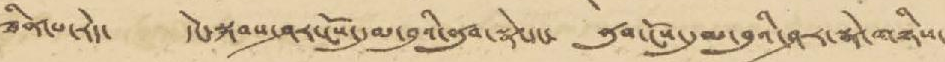ཟིན་པ་རེད་ དེང་སྐབས་ཤར་ངོས་དུམ་བུའི་ནུབ་སྣེ་དང་ ནུབ་ངོས་དུམ་བུའི་ཤར་སྣེ་གཉིས་
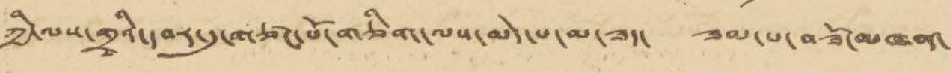ཀྱི་ལས་གྲྭའི་དབར་དུ་གཙང་པོ་གཅིག་ལས་མེད་པ་མ་ཟད་ ཟམ་པ་བཟོ་མཁན་
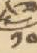༡༠
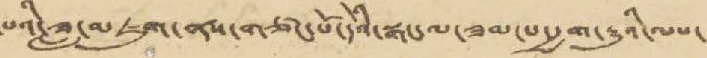པའི་ཟླ་མཇུག་ནས་གཙང་པོ་དེའི་སྒང་ལ་ཟམ་པ་རྒྱག་རྒྱུའི་ལས་
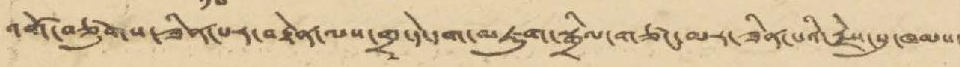འགོ་བཙུགས་ཟིན་པར་བརྟེན་ལས་གྲྭ་དེ་དག་མཇུག་སྒྲིལ་གཙང་མར་ཟིན་པའི་རྗེས་སུ་ཁམས་
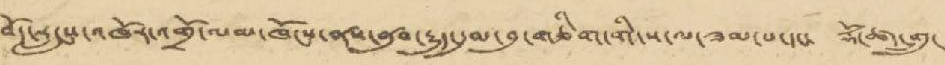བོད་རླངས་འཁོར་འགྲོ་ལམ་ཁོངས་ནས་ནུབ་རྒྱུད་དུམ་བུ་གཅིག་གི་ས་ལ་ཟམ་པ་དང་ རྡོང་ཚད་གྲུ་
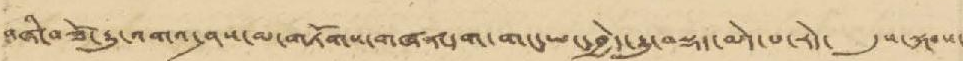བཞི་བཟོ་རྒྱུ་འགའ་ཤས་མ་གཏོགས་གཞན་དག་གང་ཡང་བྱེད་རྒྱུ་བསྡད་མེད་པ་རེད་ དུས་སྐབས་
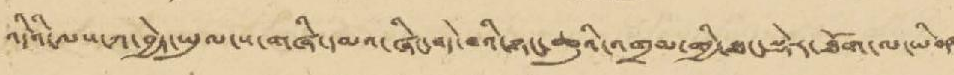འདིའི་ལས་ཀ་བྱེད་ཡུལ་ས་གཞི་དམའ་ཞིང་བདེ་བའི་ཉང་ཆུའི་འགྲམ་གྱི་ཐང་སྡེར་ཐོག་ལ་ཡིབ་
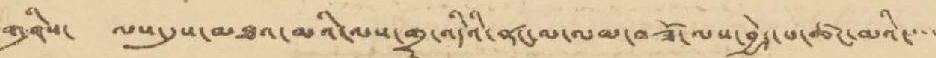གཤིས་ ལས་དུས་མཐའ་མའི་ལས་གྲྭ་འདིའི་ནང་མ་ལམ་བཟོ་ལས་བྱེད་པ་ཚང་མའི་་་་་
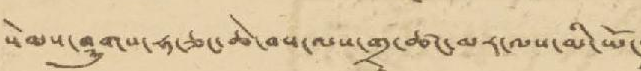སེམས་ཤུགས་ཧ་ཅང་ཆེ་བས་ལས་གྲྭ་ཚང་མར་ལས་མི་
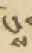ས་
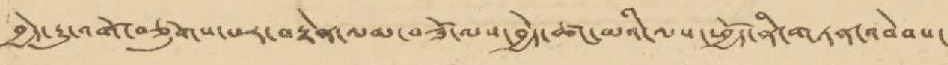བྱེད་རྒྱུ་འགོ་བཙུགས་པར་བརྟེན་ལམ་བཟོ་ལས་བྱེད་ཚང་མའི་ལས་ཕྱོད་ནི་གཏན་འབེབས་
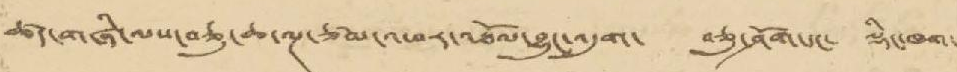ཚད་གཞི་ལས་བཅུ་ཆ་ལྔ་ཙམ་འཕར་འཐོལ་བྱུང་འདུག་ བཅུ་ཤོག་དང་ ལྡིང་ཁག་
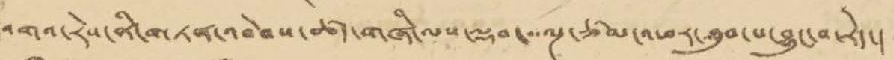འགའ་རེས་ནི་གཏན་འབེབས་ཚད་གཞི་ལས་ལྡབ་ལྔ་ཙམ་འཕར་ཐུབ་པ་བྱུང་བ་རེད་།
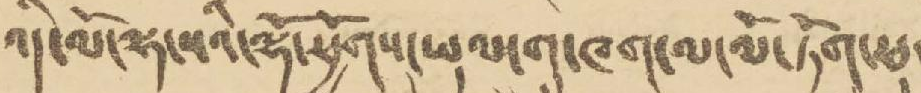འདི་ལོ་ལྷ་སའི་ལྷོ་ཕྱོགས་ཡུལ་གྲུ་ཁག་ལ་ལོ་ཏོག་ཕུན་
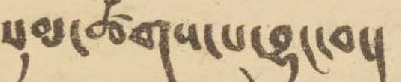སུམ་ཚོགས་པ་བྱུང་བ་།
